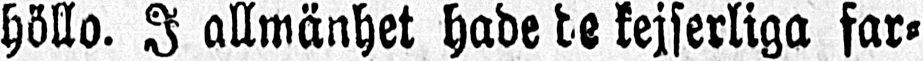höllo. I allmänhet hade de kejserliga far-
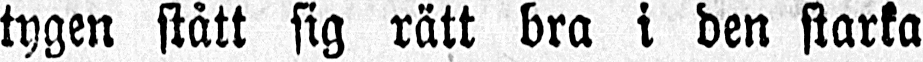tygen stått sig rätt bra i den starka
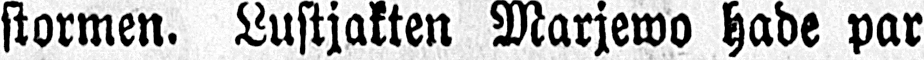stormen. Lustjakten Marjewo hade par
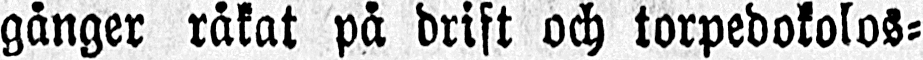gånger råkat på drift och torpedokolos-
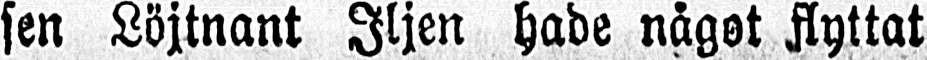sen Löjtnant Iljen hade något flyttat
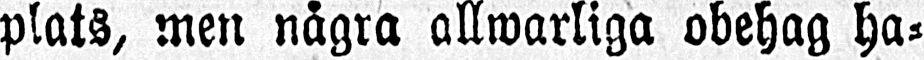plats, men några allwarliga obehag ha-
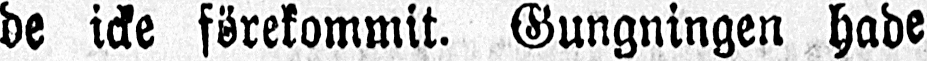de icke förekommit. Gungningen hade
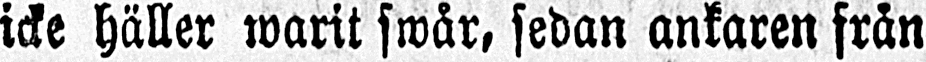icke häller warit swår, sedan ankaren från
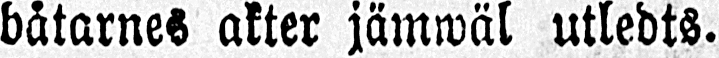båtarnes akter jämwäl utledts.
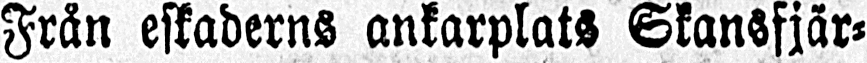Från eskaderns ankarplats Skansfjär-
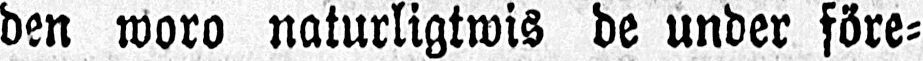den woro naturligtwis de under före-
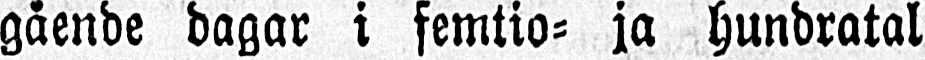gående dagar i femtio- ja hundratal
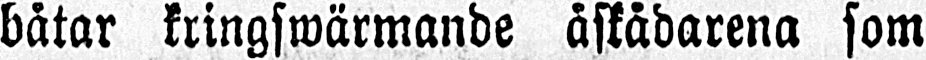båtar kringswärmande åskådarena som
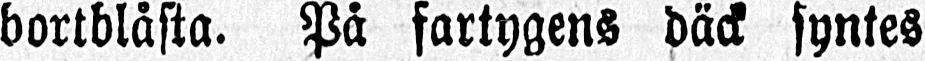bortblåsta. På fartygens däck syntes
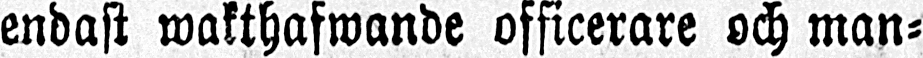endast wakthafwande officerare och man-
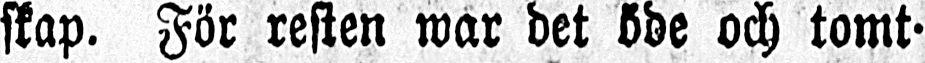skap. För resten war det öde och tomt
